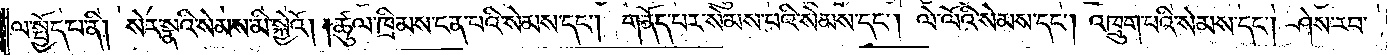ལ་སྤྱོད་པ་ནི། སེར་སྣའི་སེམས་མི་སྐྱེའོ། །ཚུལ་ཁྲིམས་ངན་པའི་སེམས་དང༌། གནོད་པར་སེམས་པའི་སེམས་དང༌། ལེ་ལོའི་སེམས་དང༌། འཁྲུག་པའི་སེམས་དང༌། ཤེས་རབ་
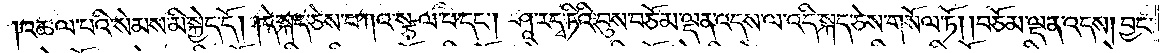འཆལ་པའི་སེམས་མི་སྐྱེད་དོ། །དེ་སྐད་ཅེས་བཀའ་སྩལ་པ་དང༌། ཤཱ་ར་དྭ་ཏིའི་བུས་བཅོམ་ལྡན་འདས་ལ་འདི་སྐད་ཅེས་གསོལ་ཏོ། །བཅོམ་ལྡན་འདས། བྱང་
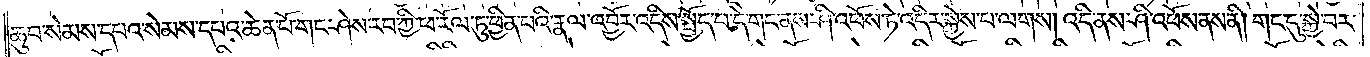ཆུབ་སེམས་དཔའ་སེམས་དཔའ་ཆེན་པོ་གང་ཤེས་རབ་ཀྱི་ཕ་རོལ་ཏུ་ཕྱིན་པའི་རྣལ་འབྱོར་འདིས་སྤྱོད་པ་དེ་གང་ནས་ཤི་འཕོས་ཏེ་འདིར་སྐྱེས་པ་ལགས། འདི་ནས་ཤི་འཕོས་ནས་ནི། གང་དུ་སྐྱེ་བར་
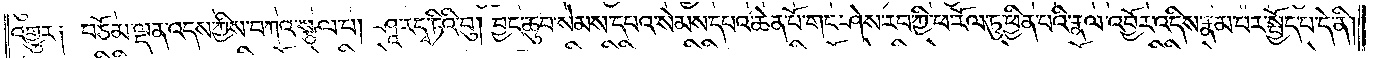འགྱུར༑ བཅོམ་ལྡན་འདས་ཀྱིས་བཀའ་སྩལ་པ། ཤཱ་ར་དྭ་ཏིའི་བུ། བྱང་ཆུབ་སེམས་དཔའ་སེམས་དཔའ་ཆེན་པོ་གང་ཤེས་རབ་ཀྱི་ཕ་རོལ་ཏུ་ཕྱིན་པའི་རྣལ་འབྱོར་འདིས་རྣམ་པར་སྤྱོད་པ་དེ་ནི།
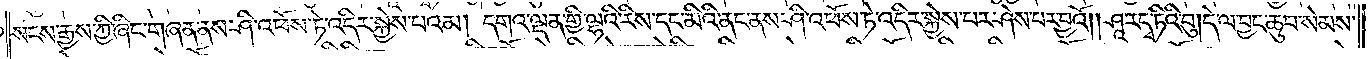སངས་རྒྱས་ཀྱི་ཞིང་གཞན་ནས་ཤི་འཕོས་ཏེ་འདིར་སྐྱེས་པའམ། དགའ་ལྡན་གྱི་ལྷའི་རིས་དང་མིའི་ནང་ནས་ཤི་འཕོས་ཏེ་འདིར་སྐྱེས་པར་ཤེས་པར་བྱའོ། །ཤཱ་ར་དྭ་ཏིའི་བུ། དེ་ལ་བྱང་ཆུབ་སེམས་
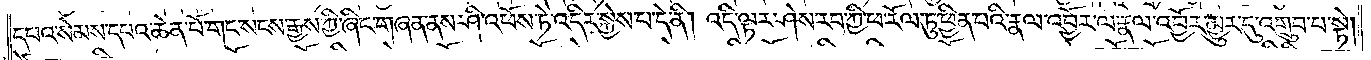དཔའ་སེམས་དཔའ་ཆེན་པོ་གང་སངས་རྒྱས་ཀྱི་ཞིང་གཞན་ནས་ཤི་འཕོས་ཏེ་འདིར་སྐྱེས་པ་དེ་ནི། འདི་ལྟར་ཤེས་རབ་ཀྱི་ཕ་རོལ་ཏུ་ཕྱིན་པའི་རྣལ་འབྱོར་ལ་རྣལ་འབྱོར་མྱུར་དུ་འགྲུབ་པ་སྟེ།
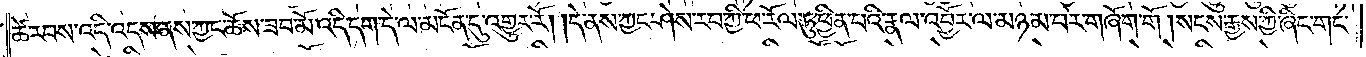ཚེ་རབས་འདི་འདས་ནས་ཀྱང་ཆོས་ཟབ་མོ་འདི་དག་དེ་ལ་མངོན་དུ་འགྱུར་རོ། །དེ་ནས་ཀྱང་ཤེས་རབ་ཀྱི་ཕ་རོལ་ཏུ་ཕྱིན་པའི་རྣལ་འབྱོར་ལ་མཉམ་པར་གཞོག་གོ །སངས་རྒྱས་ཀྱི་ཞིང་གང་
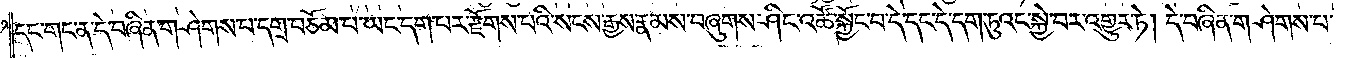དང་གང་ན་དེ་བཞིན་གཤེགས་པ་དགྲ་བཅོམ་པ་ཡང་དག་པར་རྫོགས་པའི་སངས་རྒྱས་རྣམས་བཞུགས་ཤིང་འཚོ་སྐྱོང་བ་དེ་དང་དེ་དག་ཏུའང་སྐྱེ་བར་འགྱུར་ཏེ། དེ་བཞིན་གཤེགས་པ་
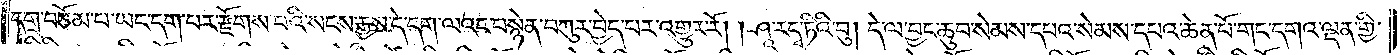དགྲ་བཅོམ་པ་ཡང་དག་པར་རྫོགས་པའི་སངས་རྒྱས་དེ་དག་ལའང་བསྙེན་བཀུར་བྱེད་པར་འགྱུར་རོ། །ཤཱ་ར་དྭ་ཏིའི་བུ། དེ་ལ་བྱང་ཆུབ་སེམས་དཔའ་སེམས་དཔའ་ཆེན་པོ་གང་དགའ་ལྡན་གྱི་
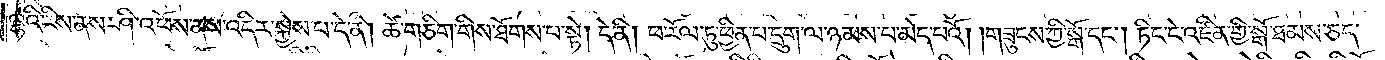ལྷའི་རིས་ནས་ཤི་འཕོས་ནས་འདིར་སྐྱེས་པ་དེ་ནི། ཚེ་གཅིག་གིས་ཐོགས་པ་སྟེ། དེ་ནི། ཕ་རོལ་ཏུ་ཕྱིན་པ་དྲུག་ལ་ཉམས་པ་མེད་པའོ། །གཟུངས་ཀྱི་སྒོ་དང༌། ཏིང་ངེ་འཛིན་གྱི་སྒོ་ཐམས་ཅད་
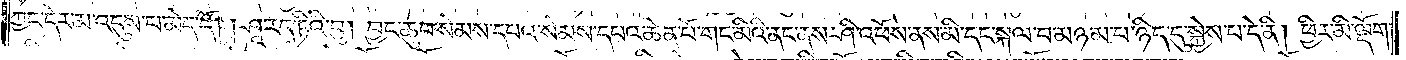ཀྱང་དེར་མ་འདུས་པ་མེད་དོ། །ཤཱ་རདྭ་ཏིའི་བུ། བྱང་ཆུབ་སེམས་དཔའ་སེམས་དཔའ་ཆེན་པོ་གང་མིའི་ནང་ནས་ཤི་འཕོས་ནས་མི་དང་སྐལ་བ་མཉམ་པ་ཉིད་དུ་སྐྱེས་པ་དེ་ནི། ཕྱིར་མི་ལྡོག་
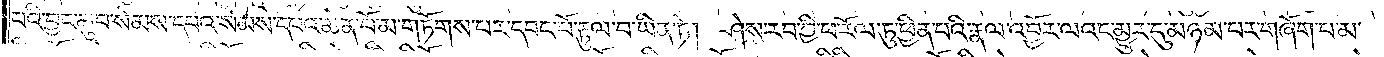པའི་བྱང་ཆུབ་སེམས་དཔའ་སེམས་དཔའ་ཆེན་པོ་མ་གཏོགས་པར་དབང་པོ་རྟུལ་བ་ཡིན་ཏེ། ཤེས་རབ་ཀྱི་ཕ་རོལ་ཏུ་ཕྱིན་པའི་རྣལ་འབྱོར་ལའང་མྱུར་དུ་མཉམ་པར་གཞོག་པ་མ་
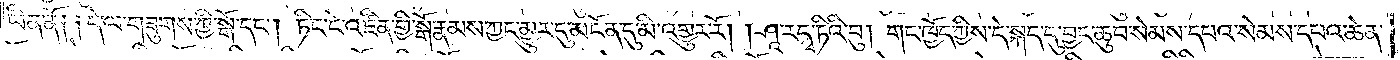ཡིན་ནོ༑ ༑དེ་ལ་གཟུགས་ཀྱི་སྒོ་དང༌། ཏིང་ངེ་འཛིན་གྱི་སྒོ་རྣམས་ཀྱང་མྱུར་དུ་མངོན་དུ་མི་འགྱུར་རོ། །ཤཱ་རདྭ་ཏིའི་བུ། གང་ཁྱོད་ཀྱིས་དེ་སྐད་དུ་བྱང་ཆུབ་སེམས་དཔའ་སེམས་དཔའ་ཆེན་
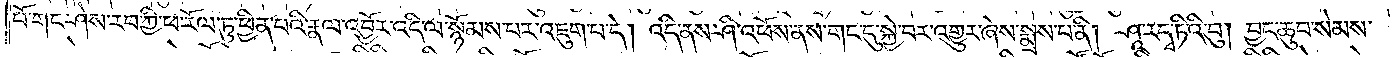པོ་གང་ཤེས་རབ་ཀྱི་ཕ་རོལ་ཏུ་ཕྱིན་པའི་རྣལ་འབྱོར་འདི་ལ་སྙོམས་པར་འཇུག་པ་དེ། འདི་ནས་ཤི་འཕོས་ནས་གང་དུ་སྐྱེ་བར་འགྱུར་ཞེས་སྨྲས་པ་ནི། ཤཱ་རདྭ་ཏིའི་བུ། བྱང་ཆུབ་སེམས་
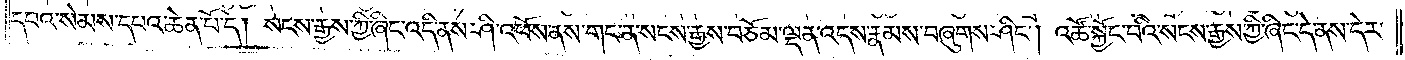དཔའ་སེམས་དཔའ་ཆེན་པོ་དེ། སངས་རྒྱས་ཀྱི་ཞིང་འདི་ནས་ཤི་འཕོས་ནས་གང་ན་སངས་རྒྱས་བཅོམ་ལྡན་འདས་རྣམས་བཞུགས་ཤིང༌། འཚོ་སྐྱོང་བའི་སངས་རྒྱས་ཀྱི་ཞིང་དེ་ནས་དེར་
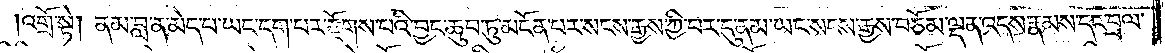འགྲོ་སྟེ། ནམ་བླ་ན་མེད་པ་ཡང་དག་པར་རྫོགས་པའི་བྱང་ཆུབ་ཏུ་མངོན་པར་སངས་རྒྱས་ཀྱི་བར་དུ་ནམ་ཡང་སངས་རྒྱས་བཅོམ་ལྡན་འདས་རྣམས་དང་བྲལ་
